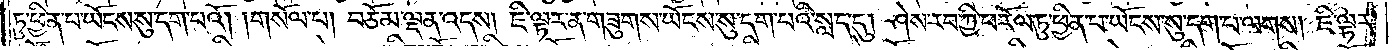ཏུ་ཕྱིན་པ་ཡོངས་སུ་དག་པའོ། །གསོལ་པ། བཅོམ་ལྡན་འདས། ཇི་ལྟར་ན་གཟུགས་ཡོངས་སུ་དག་པའི་སླད་དུ། ཤེས་རབ་ཀྱི་ཕ་རོལ་ཏུ་ཕྱིན་པ་ཡོངས་སུ་དག་པ་ལགས། ཇི་ལྟར་
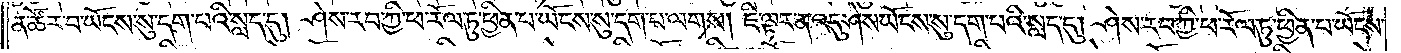ན་ཚོར་བ་ཡོངས་སུ་དག་པའི་སླད་དུ། ཤེས་རབ་ཀྱི་ཕ་རོལ་ཏུ་ཕྱིན་པ་ཡོངས་སུ་དག་པ་ལགས། ཇི་ལྟར་ན་འདུ་ཤེས་ཡོངས་སུ་དག་པའི་སླད་དུ། ཤེས་རབ་ཀྱི་ཕ་རོལ་ཏུ་ཕྱིན་པ་ཡོངས་
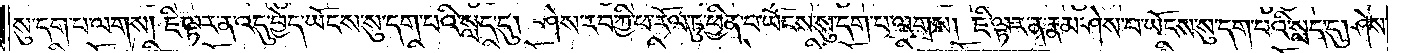སུ་དག་པ་ལགས། ཇི་ལྟར་ན་འདུ་བྱེད་ཡོངས་སུ་དག་པའི་སླད་དུ། ཤེས་རབ་ཀྱི་ཕ་རོལ་ཏུ་ཕྱིན་པ་ཡོངས་སུ་དག་པ་ལགས། ཇི་ལྟར་ན་རྣམ་པར་ཤེས་པ་ཡོངས་སུ་དག་པའི་སླད་དུ། ཤེས་
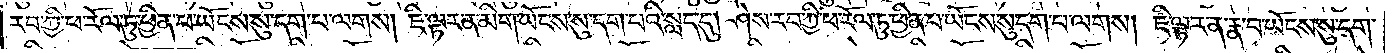རབ་ཀྱི་ཕ་རོལ་ཏུ་ཕྱིན་པ་ཡོངས་སུ་དག་པ་ལགས། ཇི་ལྟར་ན་མིག་ཡོངས་སུ་དག་པའི་སླད་དུ། ཤེས་རབ་ཀྱི་ཕ་རོལ་ཏུ་ཕྱིན་པ་ཡོངས་སུ་དག་པ་ལགས། ཇི་ལྟར་ན་རྣ་བ་ཡོངས་སུ་དག་
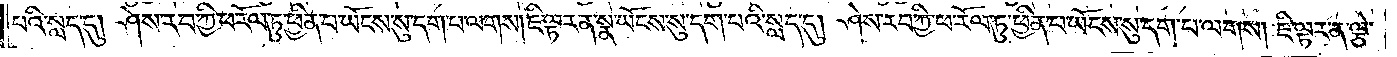པའི་སླད་དུ། ཤེས་རབ་ཀྱི་ཕ་རོལ་ཏུ་ཕྱིན་པ་ཡོངས་སུ་དག་པ་ལགས། ཇི་ལྟར་ན་སྣ་ཡོངས་སུ་དག་པའི་སླད་དུ། ཤེས་རབ་ཀྱི་ཕ་རོལ་ཏུ་ཕྱིན་པ་ཡོངས་སུ་དག་པ་ལགས། ཇི་ལྟར་ན་ལྕེ་
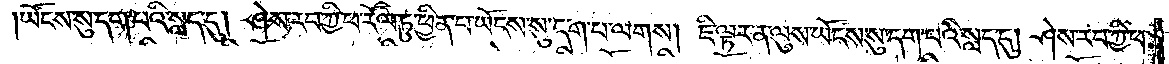ཡོངས་སུ་དག་པའི་སླད་དུ། ཤེས་རབ་ཀྱི་ཕ་རོལ་ཏུ་ཕྱིན་པ་ཡོངས་སུ་དག་པ་ལགས། ཇི་ལྟར་ན་ལུས་ཡོངས་སུ་དག་པའི་སླད་དུ། ཤེས་རབ་ཀྱི་ཕ་
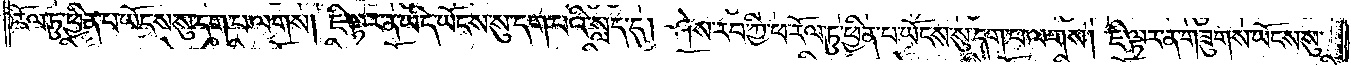རོལ་ཏུ་ཕྱིན་པ་ཡོངས་སུ་དག་པ་ལགས། ཇི་ལྟར་ན་ཡིད་ཡོངས་སུ་དག་པའི་སླད་དུ། ཤེས་རབ་ཀྱི་ཕ་རོལ་ཏུ་ཕྱིན་པ་ཡོངས་སུ་དག་པ་ལགས། ཇི་ལྟར་ན་གཟུགས་ཡོངས་སུ་
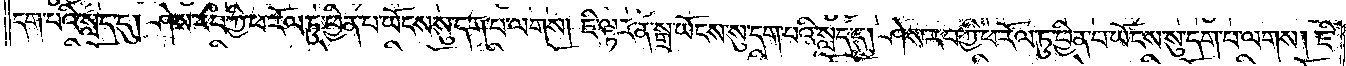དག་པའི་སླད་དུ། ཤེས་རབ་ཀྱི་ཕ་རོལ་ཏུ་ཕྱིན་པ་ཡོངས་སུ་དག་པ་ལགས། ཇི་ལྟར་ན་སྒྲ་ཡོངས་སུ་དག་པའི་སླད་དུ། ཤེས་རབ་ཀྱི་ཕ་རོལ་ཏུ་ཕྱིན་པ་ཡོངས་སུ་དག་པ་ལགས། ཇི་
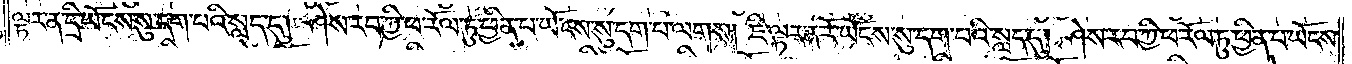ལྟར་ན་དྲི་ཡོངས་སུ་དག་པའི་སླད་དུ། ཤེས་རབ་ཀྱི་ཕ་རོལ་ཏུ་ཕྱིན་པ་ཡོངས་སུ་དག་པ་ལགས། ཇི་ལྟར་ན་རོ་ཡོངས་སུ་དག་པའི་སླད་དུ། ཤེས་རབ་ཀྱི་ཕ་རོལ་ཏུ་ཕྱིན་པ་ཡོངས་
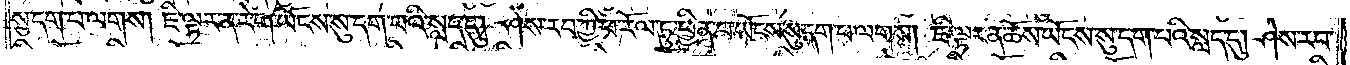སུ་དག་པ་ལགས། ཇི་ལྟར་ན་རེག་ཡོངས་སུ་དག་པའི་སླད་དུ། ཤེས་རབ་ཀྱི་ཕ་རོལ་ཏུ་ཕྱིན་པ་ཡོངས་སུ་དག་པ་ལགས། ཇི་ལྟར་ན་ཆོས་ཡོངས་སུ་དག་པའི་སླད་དུ། ཤེས་རབ་
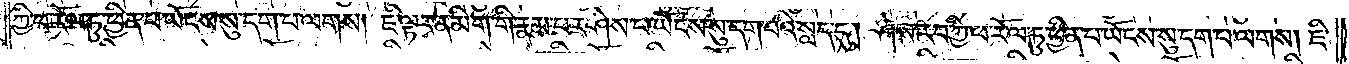ཀྱི་ཕ་རོལ་ཏུ་ཕྱིན་པ་ཡོངས་སུ་དག་པ་ལགས། ཇི་ལྟར་ན་མིག་གི་རྣམ་པར་ཤེས་པ་ཡོངས་སུ་དག་པའི་སླད་དུ། ཤེས་རབ་ཀྱི་ཕ་རོལ་ཏུ་ཕྱིན་པ་ཡོངས་སུ་དག་པ་ལགས། ཇི་
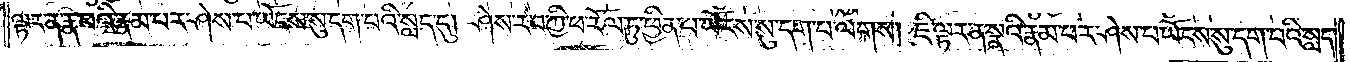ལྟར་ན་རྣ་བའི་རྣམ་པར་ཤེས་པ་ཡོངས་སུ་དག་པའི་སླད་དུ། ཤེས་རབ་ཀྱི་ཕ་རོལ་ཏུ་ཕྱིན་པ་ཡོངས་སུ་དག་པ་ལགས། ཇི་ལྟར་ན་སྣའི་རྣམ་པར་ཤེས་པ་ཡོངས་སུ་དག་པའི་སླད་
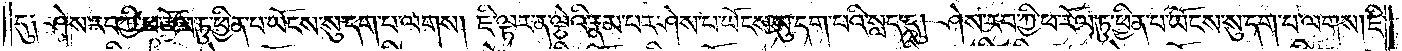དུ༑ ཤེས་རབ་ཀྱི་ཕ་རོལ་ཏུ་ཕྱིན་པ་ཡོངས་སུ་དག་པ་ལགས། ཇི་ལྟར་ན་ལྕེའི་རྣམ་པར་ཤེས་པ་ཡོངས་སུ་དག་པའི་སླད་དུ། ཤེས་རབ་ཀྱི་ཕ་རོལ་ཏུ་ཕྱིན་པ་ཡོངས་སུ་དག་པ་ལགས། ཇི་
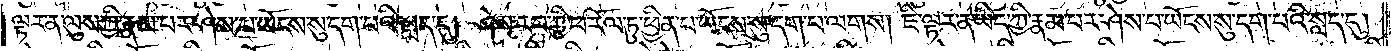ལྟར་ན་ལུས་ཀྱི་རྣམ་པར་ཤེས་པ་ཡོངས་སུ་དག་པའི་སླད་དུ། ཤེས་རབ་ཀྱི་ཕ་རོལ་ཏུ་ཕྱིན་པ་ཡོངས་སུ་དག་པ་ལགས། ཇི་ལྟར་ན་ཡིད་ཀྱི་རྣམ་པར་ཤེས་པ་ཡོངས་སུ་དག་པའི་སླད་དུ།
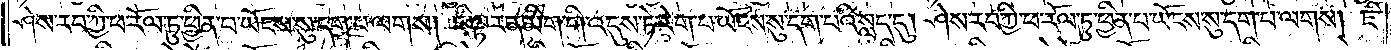ཤེས་རབ་ཀྱི་ཕ་རོལ་ཏུ་ཕྱིན་པ་ཡོངས་སུ་དག་པ་ལགས། ཇི་ལྟར་ན་མིག་གི་འདུས་ཏེ་རེག་པ་ཡོངས་སུ་དག་པའི་སླད་དུ། ཤེས་རབ་ཀྱི་ཕ་རོལ་ཏུ་ཕྱིན་པ་ཡོངས་སུ་དག་པ་ལགས། ཇི་
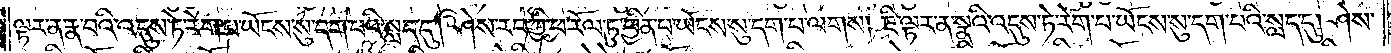ལྟར་ན་རྣ་བའི་འདུས་ཏེ་རེག་པ་ཡོངས་སུ་དག་པའི་སླད་དུ། ཤེས་རབ་ཀྱི་ཕ་རོལ་ཏུ་ཕྱིན་པ་ཡོངས་སུ་དག་པ་ལགས། ཇི་ལྟར་ན་སྣའི་འདུས་ཏེ་རེག་པ་ཡོངས་སུ་དག་པའི་སླད་དུ། ཤེས་
